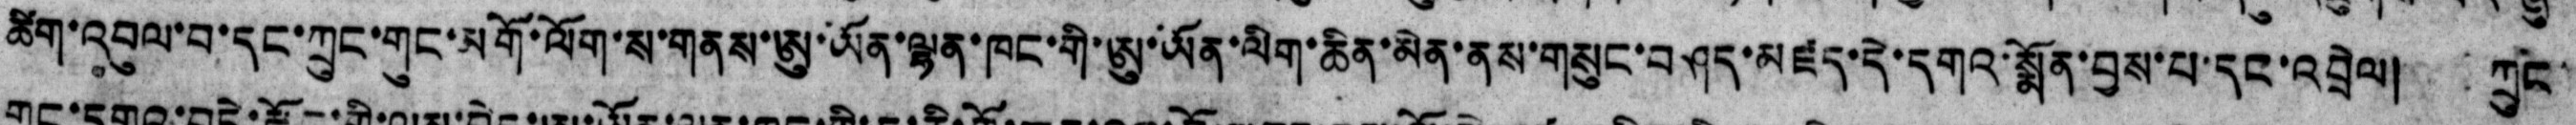ཚིག་འབུལ་བ་དང་ཀྲུང་གུང་མགོ་ལོག་ས་གནས་ཨུ་ཡོན་ལྷན་ཁང་གི་ཨུ་ཡོན་ལིག་ཆིན་མེན་ནས་གསུང་བཤད་མཛད་དེ་དགའ་སྨོན་བྱས་པ་དང་འབྲེལ། ཀྲུང་
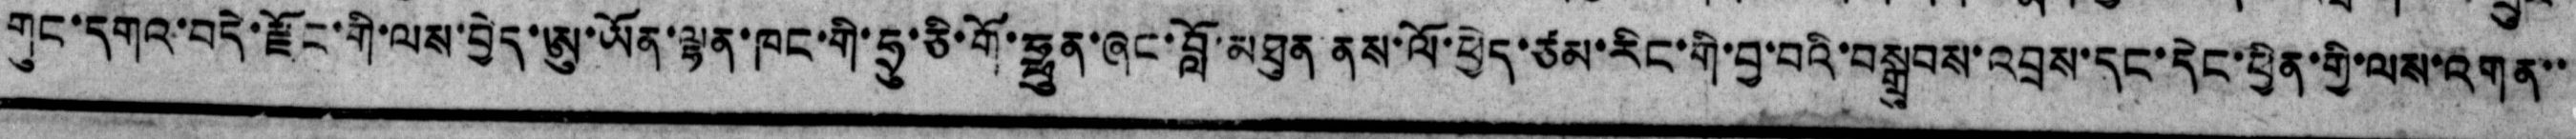གུང་དགའ་བདེ་རྫོང་གི་ལས་བྱེད་ཨུ་ཡོན་ལྷན་ཁང་གི་ཧྲུ་ཅི་གོ་ཧྥུན་ཞང་བློ་མཐུན་ནས་ལོ་ཕྱེད་ཙམ་རིང་གི་བྱ་བའི་བསྒྲུབས་འབྲས་དང་དེང་ཕྱིན་གྱི་ལས་འགན་་
